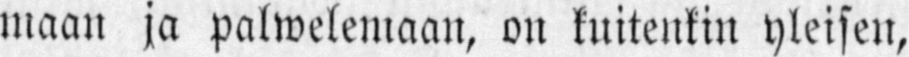maan ja palwelemaan, on kuitenkin yleisen,
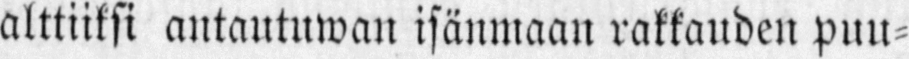alttiiksi antautuwan isänmaan rakkauden puu-
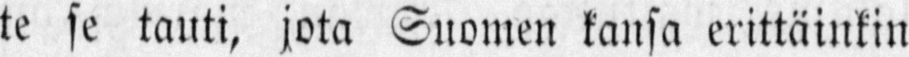te se tauti, jota Suomen kansa erittäinkin
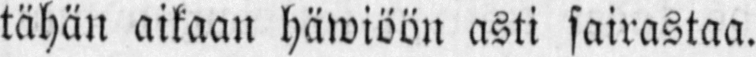tähän aikaan häwiöön asti sairastaa.
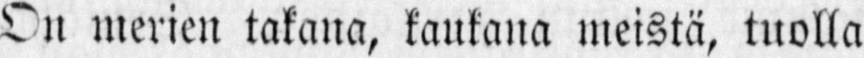On merien takana, kaukana meistä, tuolla
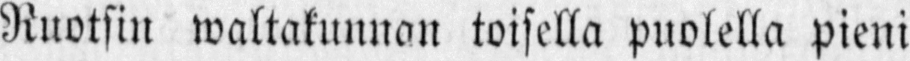Ruotsin waltakunnan toisella puolella pieni
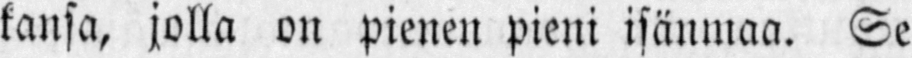kansa, jolla on pienen pieni isänmaa. Se
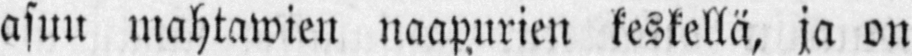asuu mahtawien naapurien keskellä, ja on
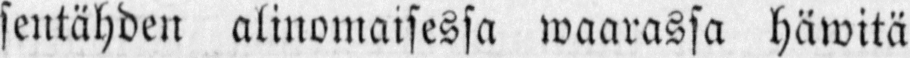sentähden alinomaisessa waarassa häwitä
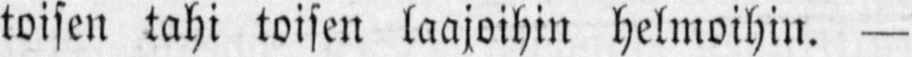toisen tahi toisen laajoihin helmoihin. —
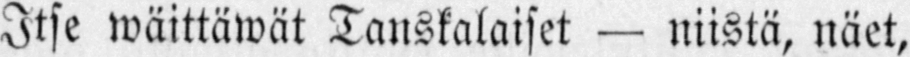Itse wäittäwät Tanskalaiset — niistä, näet,
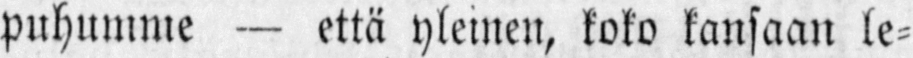puhumme — että yleinen, koko kansaan le-
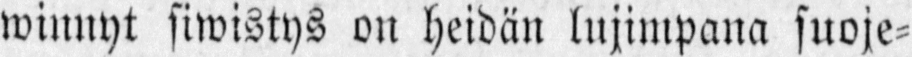winnyt siwistys on heidän lujimpana suoje-
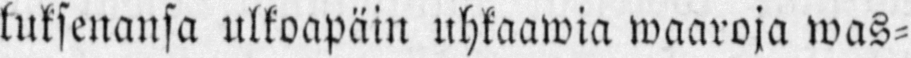luksenansa ulkoapäin uhkaawia waaroja was-
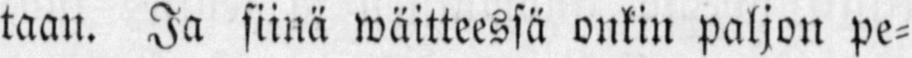taan. Ja siinä wäitteessä onkin paljon pe-
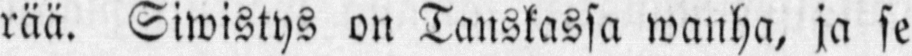rää. Siwistys on Tanskassa wanha, ja se
